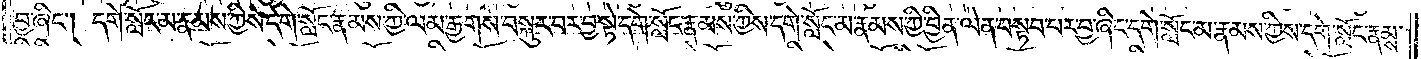བྱ་ཞིང༌། དགེ་སློང་མ་རྣམས་ཀྱིས་དགེ་སློང་རྣམས་ཀྱི་ལམ་རྒྱགས་བསྐུར་བར་བྱ་སྟེ་དགེ་སློང་རྣམས་ཀྱིས་དགེ་སློང་མ་རྣམས་ཀྱི་བྱིན་ལེན་བསྟབ་པར་བྱ་ཞིང་དགེ་སློང་མ་རྣམས་ཀྱིས་དགེ་སློང་རྣམས་
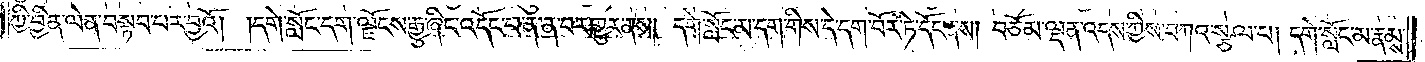ཀྱི་བྱིན་ལེན་བསྟབ་པར་བྱའོ། །དགེ་སློང་དག་ལྗོངས་རྒྱུ་ཞིང་འདོང་བ་ན་ན་བར་གྱུར་ནས། དགེ་སློང་མ་དག་གིས་དེ་དག་བོར་ཏེ་དོང་ནས། བཅོམ་ལྡན་འདས་ཀྱིས་བཀའ་སྩལ་པ། དགེ་སློང་མ་རྣམས་
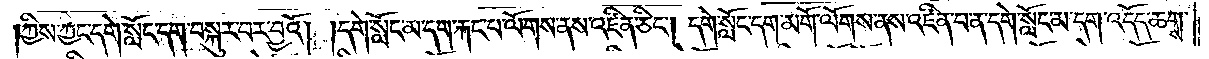ཀྱིས་ཀྱང་དགེ་སློང་དག་བསྐུར་བར་བྱའོ། །དགེ་སློང་མ་དག་རྐང་པ་ལོགས་ནས་འཛིན་ཅིང༌། དགེ་སློང་དག་མགོ་ལོགས་ནས་འཛིན་པ་ན་དགེ་སློང་མ་དག་འདོད་ཆགས་
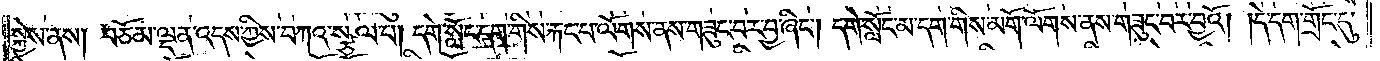སྐྱེས་ནས། བཅོམ་ལྡན་འདས་ཀྱིས་བཀའ་སྩལ་པ། དགེ་སློང་དག་གིས་རྐང་པ་ལོགས་ནས་གཟུང་བར་བྱ་ཞིང༌། དགེ་སློང་མ་དག་གིས་མགོ་ལོགས་ནས་གཟུང་བར་བྱའོ། །དེ་དག་གྲོང་དུ་
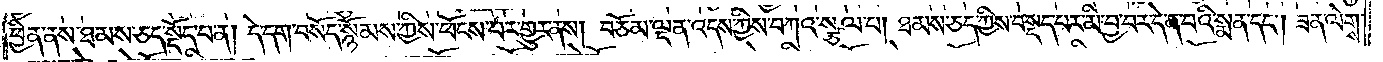ཕྱིན་ནས་ཐམས་ཅད་སྡོད་པ་ན། དེ་དག་བསོད་སྙོམས་ཀྱིས་ཕོངས་པར་གྱུར་ནས། བཅོམ་ལྡན་འདས་ཀྱིས་བཀའ་སྩལ་པ། ཐམས་ཅད་ཀྱིས་བསྡད་པར་མི་བྱ་བར་དེ་ན་བའི་སྨན་དང༌། ཟན་ལེགས་
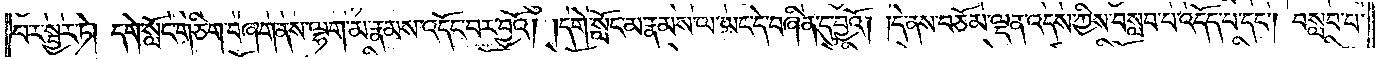པར་སྦྱར་ཏེ། དགེ་སློང་གཅིག་བཞག་ནས་ལྷག་མ་རྣམས་འདོང་བར་བྱའོ། །དགེ་སློང་མ་རྣམས་ལ་ཡང་དེ་བཞིན་དུ་བྱའོ། །དེ་ནས་བཅོམ་ལྡན་འདས་ཀྱིས་བསླབ་པ་འདོད་པ་དང༌། བསླབ་པ་
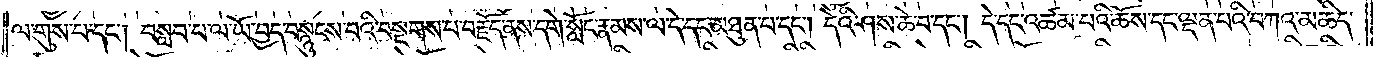ལ་གུས་པ་དང༌། བསླབ་པ་ལ་ཡོ་བྱད་བསྙུངས་པའི་བསྔགས་པ་བརྗོད་ནས་དགེ་སློང་རྣམས་ལ་དེ་དང་མཐུན་པ་དང༌། དེའི་ཤས་ཆེ་བ་དང༌། དེ་དང་འཚམ་པའི་ཆོས་དང་ལྡན་པའི་བཀའ་མཆིད་
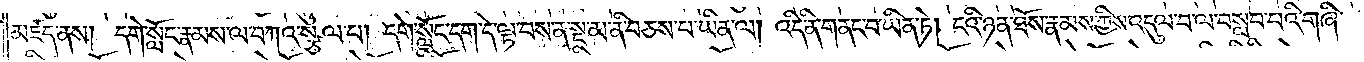མཛད་ནས། དགེ་སློང་རྣམས་ལ་བཀའ་སྩལ་པ། དགེ་སློང་དག་དེ་ལྟ་བས་ན་སྔ་མ་ནི་བཅས་པ་ཡིན་ལ། འདི་ནི་གནང་བ་ཡིན་ཏེ། ངའི་ཉན་ཐོས་རྣམས་ཀྱིས་འདུལ་བ་ལ་བསླབ་པའི་གཞི་
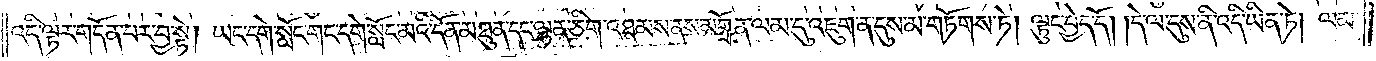འདི་ལྟར་གདོན་པར་བྱ་སྟེ། ཡང་དགེ་སློང་གང་དགེ་སློང་མའི་དོན་མཐུན་དང་ལྷན་ཅིག་འཐམས་ནས་མགྲོན་ལམ་དུ་འཇུག་ན་དུས་མ་གཏོགས་ཏེ། ལྟུང་བྱེད་དོ། །དེ་ལ་དུས་ནི་འདི་ཡིན་ཏེ། ལམ་
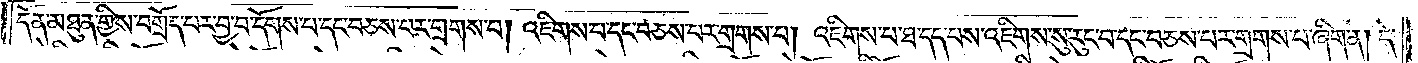དོན་མཐུན་གྱིས་བགྲོད་པར་བྱ་བ་དོགས་པ་དང་བཅས་པར་གྲགས་པ། འཇིགས་པ་དང་བཅས་པར་གྲགས་པ། འཇིགས་པ་ཐ་དད་པས་འཇིགས་སུ་རུང་བ་དང་བཅས་པར་གྲགས་པ་ཞིག་ན། དེ་
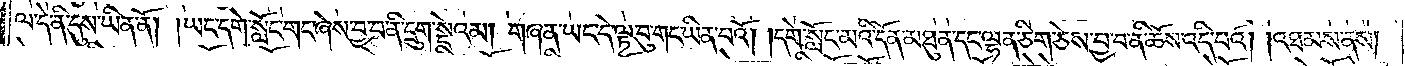ལ་དེ་ནི་དུས་ཡིན་ནོ། །ཡང་དགེ་སློང་གང་ཞེས་བྱ་བ་ནི་དྲུག་སྡེའམ། གཞན་ཡང་དེ་ལྟ་བུ་གང་ཡིན་པའོ། །དགེ་སློང་མའི་དོན་མཐུན་དག་ལྷན་ཅིག་ཅེས་བྱ་བ་ནི་ཆོས་འདི་པའོ། །འཐམས་ནས།
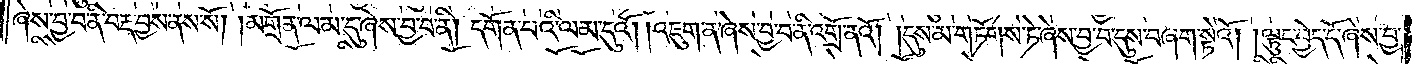ཞེས་བྱ་བ་ནི་བརྡ་བྱས་ནས་སོ། །མགྲོན་ལམ་དུ་ཞེས་བྱ་བ་ནི། དགོན་པའི་ལམ་དུའོ། །འཇུག་ན་ཞེས་བྱ་བ་ནི་འགྲོ་ནའོ། །དུས་མ་གཏོགས་ཏེ་ཞེས་བྱ་བ་དུས་བཞག་སྟེའོ། །ལྟུང་བྱེད་དོ་ཞེས་བྱ་
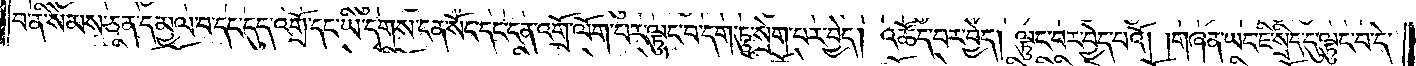བ་ནི་སེམས་ཅན་དམྱལ་བ་དང་དུད་འགྲོ་དང་ཡི་དྭགས་ངན་སོང་དང་ངན་འགྲོ་ལོག་པར་ལྟུང་བ་དག་ཏུ་སྲེག་པར་བྱེད། འཚོད་པར་བྱེད། ལྟུང་བར་བྱེད་པའོ། །གཞན་ཡང་ཇི་སྲིད་དུ་ལྟུང་བ་དེ་
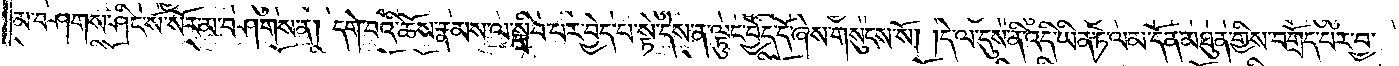མ་བཤགས་ཤིང་སོ་སོར་མ་བཤགས་ན། དགེ་བའི་ཆོས་རྣམས་ལ་སྒྲིབ་པར་བྱེད་པ་སྡེ་དེས་ན་ལྟུང་བྱེད་དོ་ཞེས་གསུངས་སོ། །དེ་ལ་དུས་ནི་འདི་ཡིན་ཏེ་ལམ་དོན་མཐུན་གྱིས་བགྲོད་པར་བྱ་
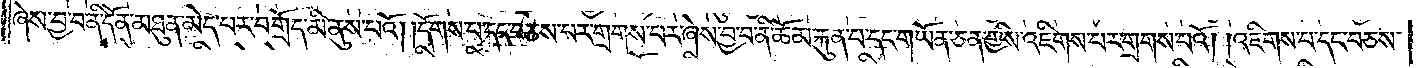ཞེས་བྱ་བ་ནི་དོན་མཐུན་མེད་པར་བགྲོད་མི་ནུས་པའོ། །དོགས་པ་དང་བཅས་པར་གྲགས་པར་ཞེས་བྱ་བ་ནི་ཆོམ་རྐུན་པ་དང་གཡོན་ཅན་གྱི་འཇིགས་པར་གྲགས་པའོ། །འཇིགས་པ་དང་བཅས་
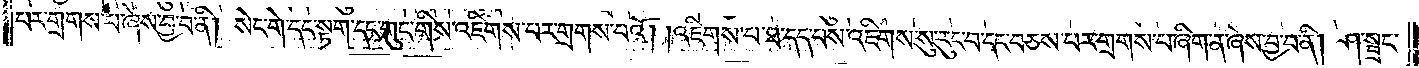པར་གྲགས་པ་ཞེས་བྱ་བ་ནི། སེང་གེ་དང་སྟག་དང་གུང་གིས་འཇིགས་པར་གྲགས་པའོ། །འཇིགས་པ་ཐ་དད་པས་འཇིགས་སུ་རུང་བ་དང་བཅས་པར་གྲགས་པ་ཞིག་ན་ཞེས་བྱ་བ་ནི། ཤ་སྦྲང་
